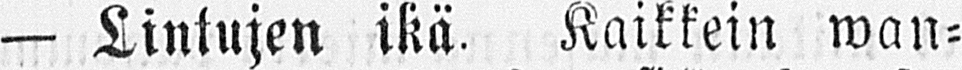— Lintujen ikä. Kaikkein wan-
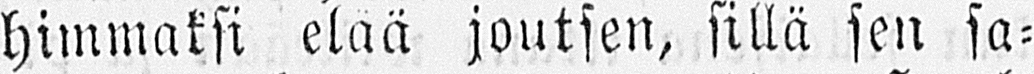himmaksi elää joutsen, sillä sen sa-
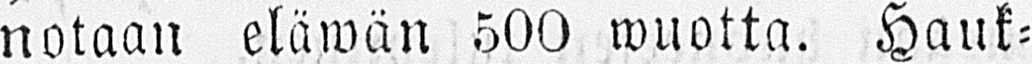notaan eläwän 500 wuotta. Hauk-
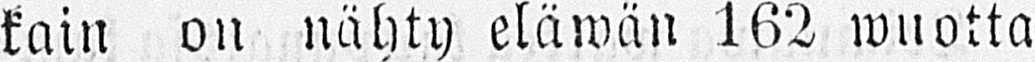kain on nähty eläwän 162 wuotta
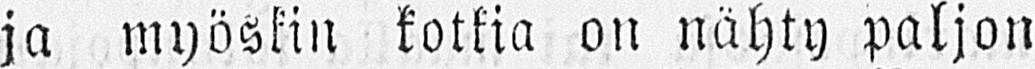ja myöskin kotkia on nähty paljon
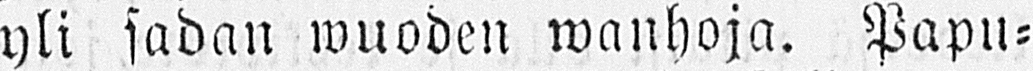yli sadan wuoden wanhoja. Papu-
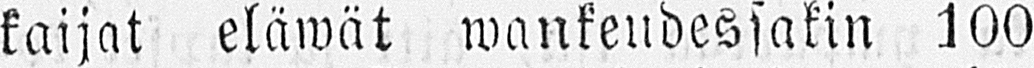kaijat eläwät wankeudessakin 100
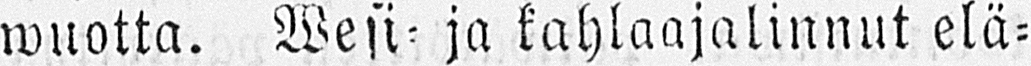wuotta. Wesi- ja kahlaajalinnut elä-
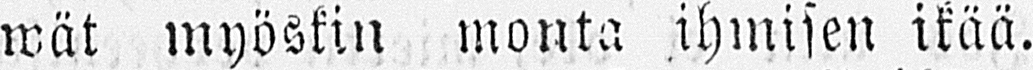wät myöskin monta ihmisen ikää.
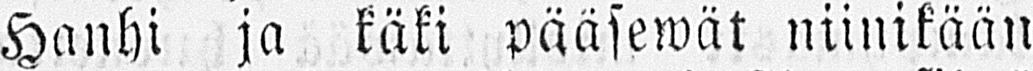Hanhi ja käki pääsewät niinikään
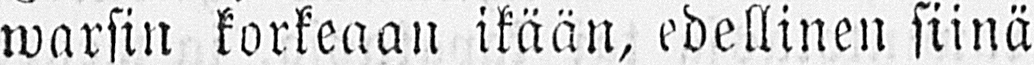warsin korkeaan ikään, edellinen siinä
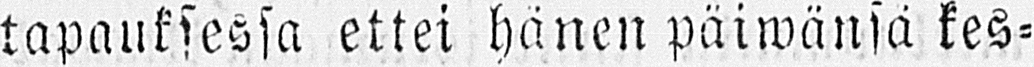tapauksessa ettei hänen päiwänsä kes-
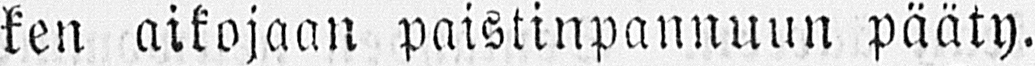ken aikojaan paistinpannuun pääty.
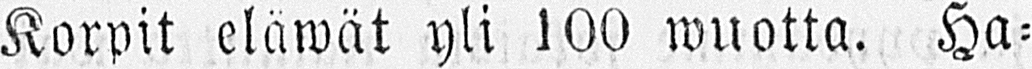Korpit eläwät yli 100 wuotta. Ha-
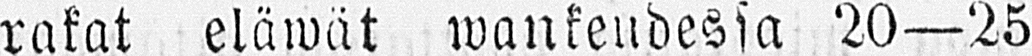rakat eläwät wankeudessa 20 —25
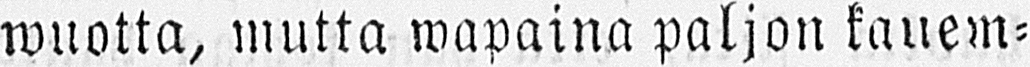wuotta, mutta wapaina paljon kauem-
